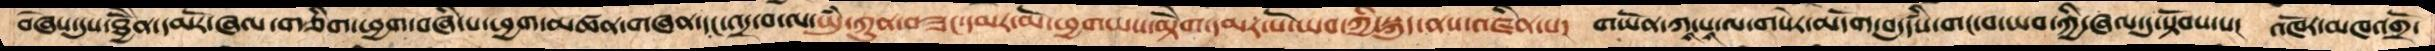བཞེས་དུས་ཐྱཻནོ་དམརོ་ཞལ་གཅིག་ཕྱག་བཞི་པ་ཕྱག་མཚན་གཞན་དང་འདྲ་བ་ལ་ཡུཾ་ཀུན་བཟང་དམར་མོ་ཕྱགཡས་མྟེགོ་དམར་པོ་ཡབ་ཀྱི་སྐུད་ནས་འཛིན་པ།  གཡོན་ཀཱ་པཱ་ལ་གསེར་མདོག་བདུདརྩིས་གང་བ་ཡབ་ཀྱི་ཞལ་དུ་སྟོབས་པ།  འཁོར་མཁའགྲོ་
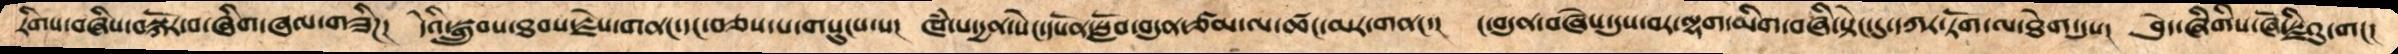རིགས་བཞིས་བསྐོར་བ་ཞིག་ཞལ་གཟིཌ།  དེའི་སྒྲུབས་ཐབས་རྗེས་གནང་དང་བཅས་པ་གསུངས་པ།  ཁཾ་པ་དྱན་སེང་དཔོན་སློབ་བདུན་ཙམ་ལ་ཚང་མར་གནང་།   ང་བདུན་བཞེས་དུས་བར་ལྷག་མིག་བཞི་སྟེང་དུ་དཀར་ཏོག་ལ་ཐེག་དུས།   བེུད་ཞིགིས་ཞོ་སྫིའུ་གང་།
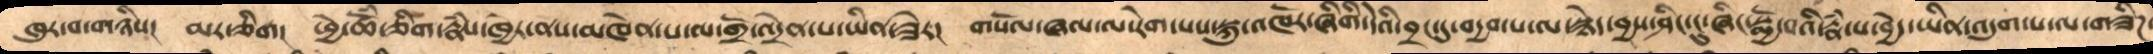ཁུར་བ་གཉིས།  མར་ཅིག།  ཕྱི་ཚོཾ་ཅིག་རྣཾས་ཁྱེར་ནས་མཁེན་པ་ལ་གྲོ་འདྲེན་པ་ཡིན་ཟེར།   གསོལ་ཞལ་ལ་རེག་པས་སྐུ་འཁོར་ཞིགི་དེའི་བྲང་དུ་བདྱབ་པ་ལ་སྙེད་བྱས་ཤིང་ངུ་ཞིང་སྨྱོ་བའི་རྣཾ་པ་བྱེད་ཡིན་འདུག་པ་ལ་གཟིཌ་
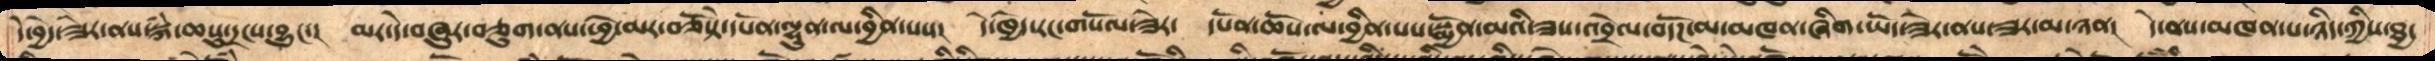དེ་བྱེད་ཟེར་ནས་སྐཾ་ཆསུ་དྲངས་བྱུང་།  མར་དེ་བཞུར་བཅུག་ནས་ཕྱེ་མར་བཅོསྟེ་དཔོན་ལྷུན་ལ་བྱིན་པས།  དེ་ཁྱེད་རང་གསོལ་ཟེར།  དཔོན་ཆོས་ལ་བྱིན་པས་སྨྱོན་མའི་ཟས་འབྲེལ་བདོཌ་མ་མཁན་ཞིག་ཡོད་ཟེར་ནས་ཟར་མ་ཉན།  དེ་ནས་མཁེན་པ་ཉིད་ཀྱིས་ཐྱ་
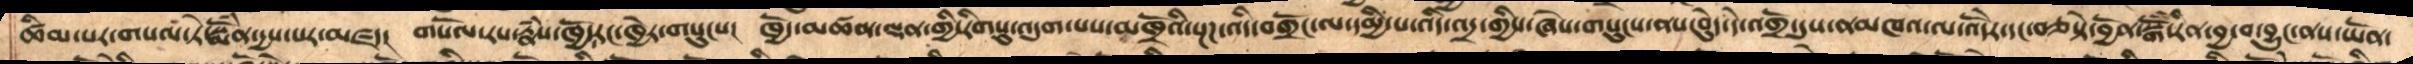ཚིམ་པར་གསོལ་ཏེ་སྨོཾན་དྱས་པར་མཛད།  གསོལ་རས་རྣཾས་ཁྱོད་རང་ཁྱེར་གསུངས།   ཁྱོད་མཚན་ལྡན་གྱི་རིགསུ་འདུག་པས་མཁྲོའི་སྔཌ་འདི་བགྲོང་ལ་དམྱི་པ་འདི་འདྲ་གྱིས་ཞེས་གསུངས་ནས་བེུད་དེ་འགྲོ་དུས་ནམཁའ་ལ་འོདེར་དང་བཅསྟེ་བྱོན་སྒོཾ་རིན་བྱ་བ་བྱུང་ནས་ཡོན་
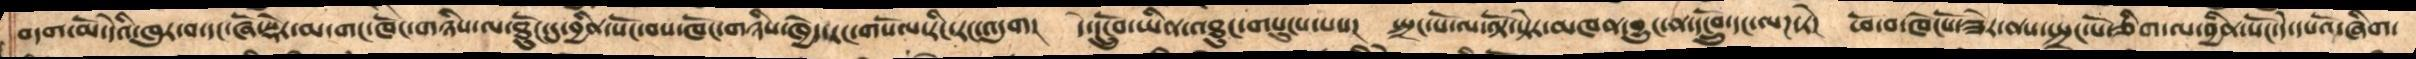བདག་མོ་དེའི་ཁུར་བ་དང་ཞོ་སྡེར་མ་གང་ཁོང་གཉིས་ལ་ཐོུང་དུ་བྱིན་སོང་བས་ཁོང་གཉིས་ཁྱེད་རང་གསོལ་རིང་རང་འདུག།   དེ་དངྲོུབ་ཡིན་འཐུང་གསུངས་པས།   སྤྲང་པོ་ལ་ལྟོ་སྟེར་མཁན་བྱུང་ན་དངྲོུབ་དང་ལཌ་ཏེ།  ཕོ་བ་ཁེངསོ་ཟེར་ནས་སྤྲང་པོ་ཅིག་ལ་བྱིན་སོང་དེ་དཔོའ་ཞིག་
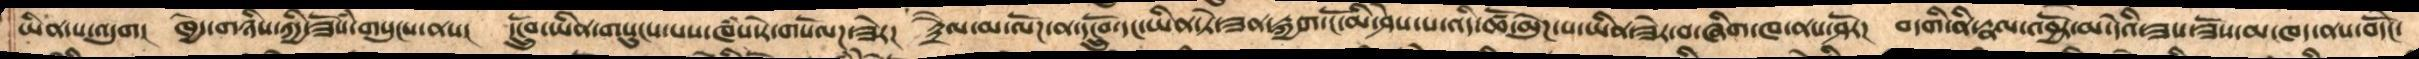ཡིན་པ་འདུག།   ཁྱེད་གཉིས་ཀྱི་ཟོསཾ་གསུངས་ནས།  དངྲོུབ་ཡིན་གསུངས་པས་ཁཾས་རེ་གསོལཌ་ཟེར།   རྟཻལ་མ་ལོཌ་ན་དངྲོུབ་དང་ཡིན་ཏེ་ཟན་སྐྱག་ངོ་མི་ཤེས་པ་འདི་ཚོ་མུཌེ་པ་ཡིན་ཟེར་བ་ཞིག་ཁ་ནས་ཤོར།  བདགི་ནི་རྣལ་འབྱོར་མ་དེའི་ཟས་ཟོས་མ་ཁད་ནས་བདེོང་
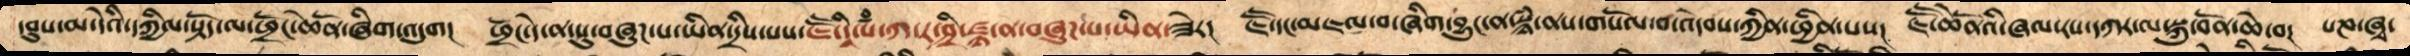དབུས་མ་དེའི་དཀྱིལ་སྟོད་ལ་ཕྲོང་ཆེནོ་ཞིག་འདུག།   ཕྲོང་དེ་ན་སུ་བཞུཌ་པ་ཡིན་དྲིས་པས་ཇཽ་དཱི་པཾ་ཀ་ར་ཤྲཱི་ཛྙཱ་ན་བཞུཌ་པ་ཡིན་ཟེར།   ཇཽ་དང་མཇལ་བ་ཞིག་བྱུང་ན་སྙཾ་ནས་གསོལ་བ་འདེབས་ཀྱིན་ཕྱིན་པས།  ཇཽ་ཆེནོའི་ཞལ་རས་དཀར་ལ་སྐུ་བོན་ཆེ་བ། པཎ་ཞྭ་
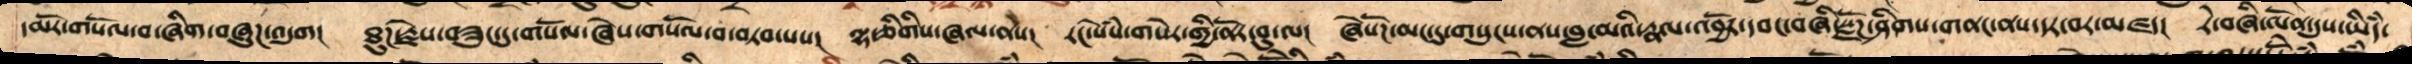དམརོ་གསོལ་བ་ཞིག་བཞུཌ་འདུག།  ཐུཌ་རྗེས་བཟུང་དུ་གསོལ་ཞེས་གསོལ་བ་བཏབ་པས།  ལྷ་ཅིགིས་ཞལ་ནས།  རང་སེཾས་གསེར་གྱི་ནོར་བུ་ལ།  ཞེསོཌ་མང་དུ་གསུངས་ནས་བླ་མའི་རྣལ་འབྱོར་དབང་བཞི་སྫོཌ་ཤིགས་གནང་ནས་དར་བར་མཛད།  རེ་བཞི་ལོན་དུས་ཡིདཾ་
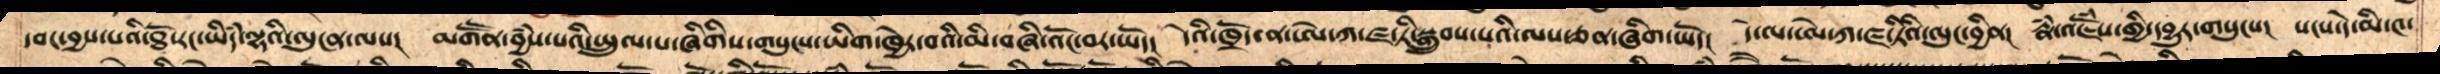དབང་བྱས་པའི་ཐོ་རང་ཡིདཾ་ལྷའི་ལུངན་ལས།   མགཽན་བྱཾས་པའི་སྤྲུལ་པ་ཞིགིས་གསུངས་ཡིག་ཁྱེར་བའི་མི་བཞི་འོང་བར་ཡོད།   དེའི་ཁྲོད་ན་ཨེ་ཀ་ཛ་ཏི་སྒྲུབས་པའི་ལས་ཅན་ཞིག་ཡོད།   དེ་ལ་ཨེ་ཀ་ཛ་ཏིའི་ལུང་བྱིན།  རྣཾ་འཇོཾས་གྱི་དབྱུར་གསུངས།  སངས་དེ་མི་༤
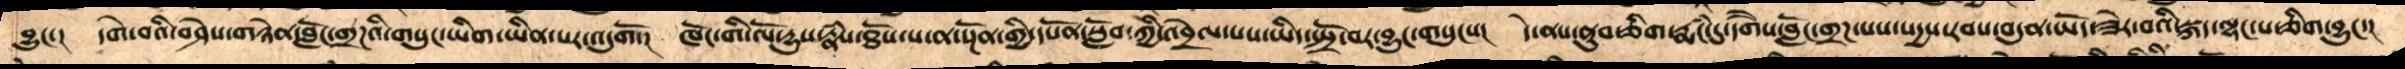བྱུང་།   དགེ་བའི་བཤེས་གཉེན་བློང་གྲཌའི་གསུང་ཡིག་ཡིན་པར་འདུགོ་།   ཁོང་གི་ལོ་དྱུས་རྣཾས་ཐོས་པ་ན་སྔོན་གྱི་དཔོན་སློབ་ཀྱི་འབྲེལ་པས་ཡིད་སྤྲོ་བར་ཅིག་བྱུང་གསུངས།   དེ་ནས་ནུབ་ཅིག་རྨངཾ་དུ་དགཻས་བློང་གྲཌ་པས་སདྱས་རབས་བདུན་ཡོད་ཟེར་བའི་སྐད་ལྷང་པ་ཅིག་བྱུང་།
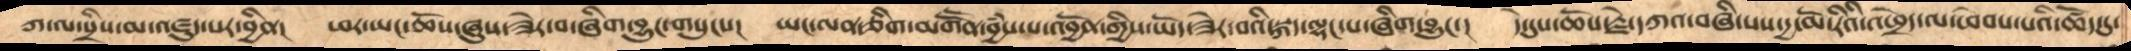ཀ་ལ་སྲིས་མ་འཛུད་པར་བྱིན།  ཕར་ཡང་ཆོས་ཞུས་ཟེར་བ་ཞིག་བྱུང་གསུངས།  ཡང་ལན་ཅིག་མགཽན་བྱཾས་པ་འབྱོན་གྱིས་ཡོད་ཟེར་བའི་སྐད་ལྷང་པ་ཞིག་བྱུང་།   དེ་དུས་ཆོས་རྗེ་དཀའ་བཞི་པས་དྱ་མོ་རིའི་འཕྲེད་ལ་ཕེབས་པའི་ཚོད་དུ་
